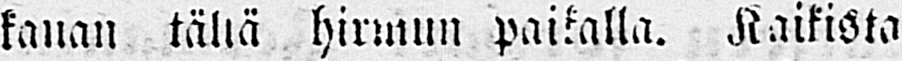kauan tällä hirmun paikalla. Kaikista
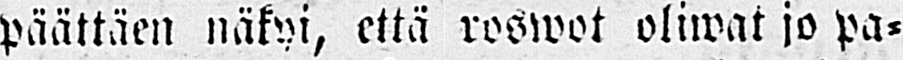päättäen näkyi, että roswot oliwat jo pa-
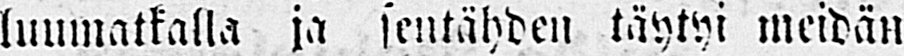luumatkalla ja sentähden täytyi meidän
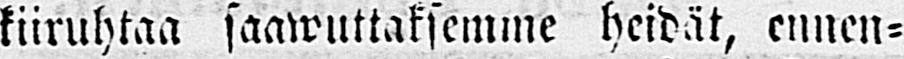kiiruhtaa saawuttaksemme heidät, ennen-
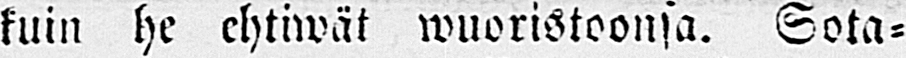kuin he ehtiwät wuoristoonsa. Sota-
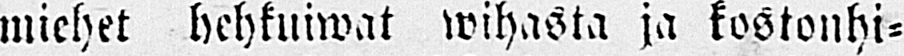miehet hehkuiwat wihasta ja kostonhi-
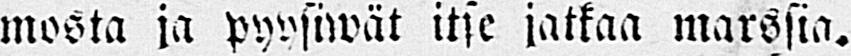mosta ja pyysiwät itse jatkaa marssia.
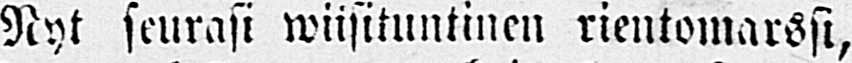Nyt seurasi wiisituntinen rientomarssi,
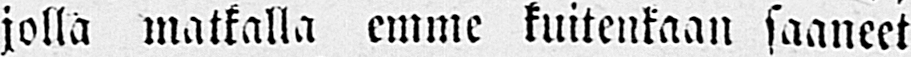jolla matkalla emme kuitenkaan saaneet
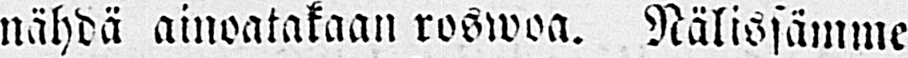nähdä ainoatakaan roswoa. Nälissämme
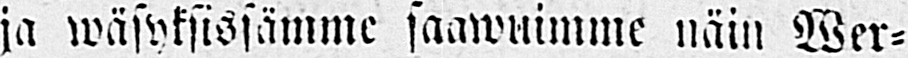ja wäsyksissämme saawuimme näin Wer-
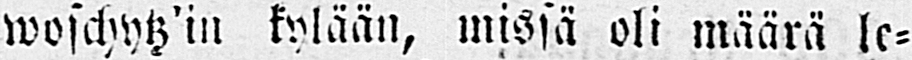woschytz’in kylään, missä oli määrä le-
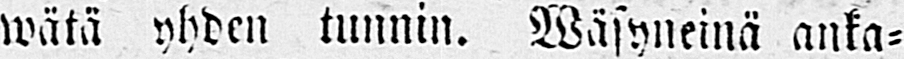wätä yhden tunnin. Wäsyneinä anka-
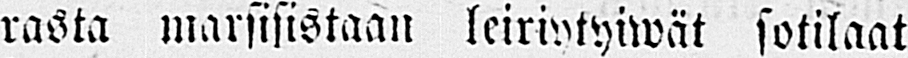rasta marsisistaan leiriytyiwät sotilaat
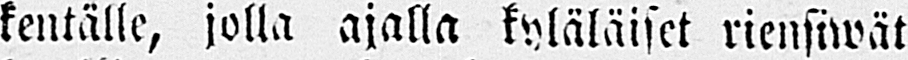kentälle, jolla ajalla kyläläiset riensiwät
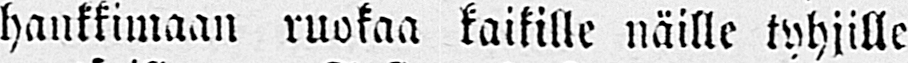hankkimaan ruokaa kaikille näille tyhjille
